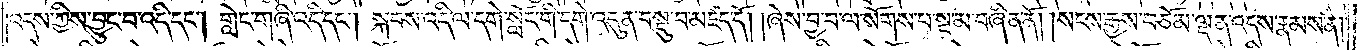འདས་ཀྱིས་བྱུང་བ་འདི་དང༌། གླེང་གཞི་འདི་དང༌། སྐབས་འདི་ལ་དགེ་སློང་གི་དགེ་འདུན་བསྡུ་བ་མཛད་དོ། །ཞེས་བྱ་བ་ལ་སོགས་པ་སྔ་མ་བཞིན་ནོ། །སངས་རྒྱས་བཅོམ་ལྡན་འདས་རྣམས་ནི།
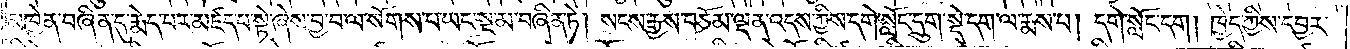མཁྱེན་བཞིན་དུ་རྨེད་པར་མཛད་པ་སྟེ་ཞེས་བྱ་བ་ལ་སོགས་པ་ཡང་སྔ་མ་བཞིན་ཏེ། སངས་རྒྱས་བཅོམ་ལྡན་འདས་ཀྱིས་དགེ་སློང་དྲུག་སྡེ་དག་ལ་རྨས་པ། དགེ་སློང་དག། ཁྱེད་ཀྱིས་དབྱར་
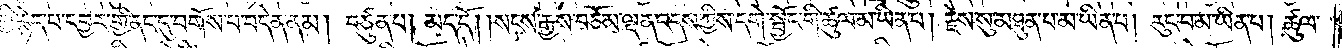གྱི་རྙེད་པ་དབྱར་གྱི་ནང་དུ་བགོས་པ་བདེན་ནམ། བཙུན་པ། མད་དོ། །སངས་རྒྱས་བཅོམ་ལྡན་འདས་ཀྱིས་དགེ་སྦྱོང་གི་ཚུལ་མ་ཡིན་པ། རྗེས་སུ་མཐུན་པ་མ་ཡིན་པ། རུང་བ་མ་ཡིན་པ། ཚུལ་
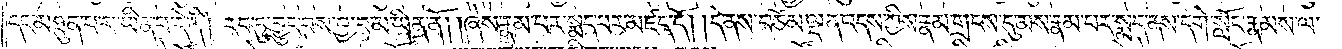དང་མཐུན་པ་མ་ཡིན་པ་དེ་ནི། རབ་ཏུ་བྱུང་བས་བྱ་བ་མ་ཡིན་ནོ། །ཞེས་རྣམ་པར་སྨད་པར་མཛད་དོ། །དེ་ནས་བཅོམ་ལྡན་འདས་ཀྱིས་རྣམ་གྲངས་དུ་མས་རྣམ་པར་སྨད་ནས་དགེ་སློང་རྣམས་ལ་
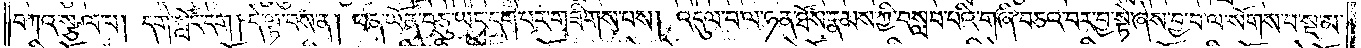བཀའ་སྩལ་པ། དགེ་སློང་དག། དེ་ལྟ་བས་ན། ཕན་ཡོན་བཅུ་ཡང་དག་པར་གཟིགས་པས། འདུལ་བ་ལ་ཉན་ཐོས་རྣམས་ཀྱི་བསླབ་པའི་གཞི་བཅའ་བར་བྱ་སྟེ་ཞེས་བྱ་བ་ལ་སོགས་པ་སྔ་མ་
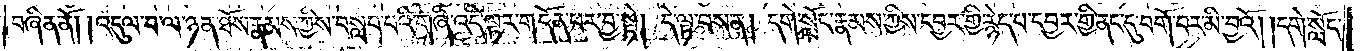བཞིན་ནོ། །འདུལ་བ་ལ་ཉན་ཐོས་རྣམས་ཀྱིས་བསླབ་པའི་གཞི་འདི་ལྟར་གདོན་པར་བྱ་སྟེ། དེ་ལྟ་བས་ན། དགེ་སློང་རྣམས་ཀྱིས་དབྱར་གྱི་རྙེད་པར་དབྱར་གྱི་ནང་དུ་བགོ་བར་མི་བྱའོ། །དགེ་སློང་
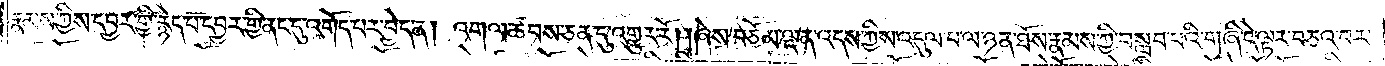རྣམས་ཀྱིས་དབྱར་གྱི་རྙེད་པར་དབྱར་གྱི་ནང་དུ་འགོད་པར་བྱེད་ན། འགལ་ཚབས་ཅན་དུ་འགྱུར་རོ། །ཞེས་བཅོམ་ལྡན་འདས་ཀྱིས་འདུལ་བ་ལ་ཉན་ཐོས་རྣམས་ཀྱི་བསླབ་པའི་གཞི་དེ་ལྟར་བཅའ་བར་
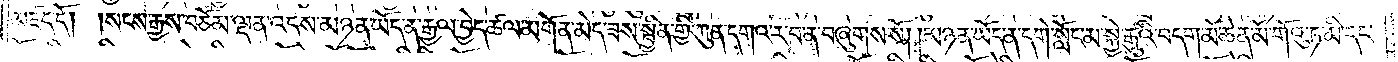མཛད་དོ། །སངས་རྒྱས་བཅོམ་ལྡན་འདས་མཉན་ཡོད་ན་རྒྱལ་བྱེད་ཚལ་མགོན་མེད་ཟས་སྦྱིན་གྱི་ཀུན་དགའ་ར་བ་ན་བཞུགས་སོ། །མཉན་ཡོད་ན་དགེ་སློང་མ་སྐྱེ་རྒུའི་བདག་མོ་ཆེན་མོ་གོའུ་ཏ་མི་དང་
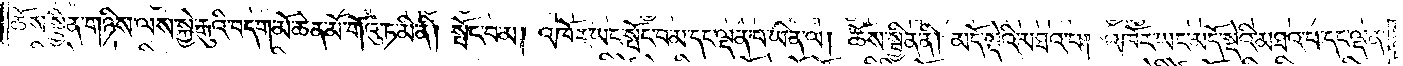ཆོས་སྦྱིན་གཉིས་ལས་སྐྱེ་རྒུའི་བདག་མོ་ཆེན་མོ་གོའུ་ཏ་མི་ནི། སྤོང་བ་མ། འཁོར་ཡང་སྤོང་བ་མ་དང་ལྡན་པ་ཡིན་ལ། ཆོས་སྦྱིན་ནི། མདོ་སྡེའི་མཐའ་པ། འཁོར་ཡང་མདོ་སྡེའི་མཐའ་པ་དང་ལྡན་
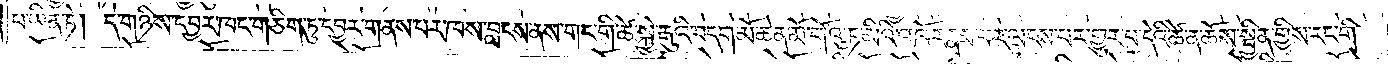པ་ཡིན་ཏེ། དེ་གཉིས་དབྱར་ཁང་གཅིག་ཏུ་དབྱར་གནས་པར་ཁས་བླངས་ནས་གང་གི་ཚེ་སྐྱེ་རྒུའི་བདག་མོ་ཆེན་མོ་གོའུ་ཏ་མིའི་འཁོར་རྣམ་པར་ལངས་པར་གྱུར་པ་དེའི་ཚེ་ན་ཆོས་སྦྱིན་གྱིས་རང་གི་
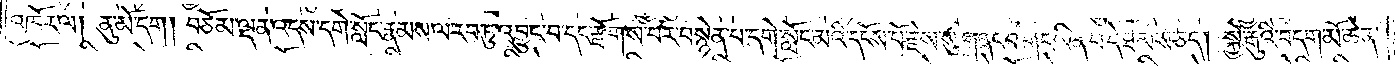འཁོར་ལ། ནུ་མོ་དག། བཅོམ་ལྡན་འདས་དགེ་སློང་རྣམས་ལ་རབ་ཏུ་འབྱུང་བ་དང་རྫོགས་པར་བསྙེན་པ་དགེ་སློང་མའི་དངོས་པོ་རྗེས་སུ་གནང་བ་གང་ཡིན་པ་དེ་ཐམས་ཅད། སྐྱེ་རྒུའི་བདག་མོ་ཆེན་
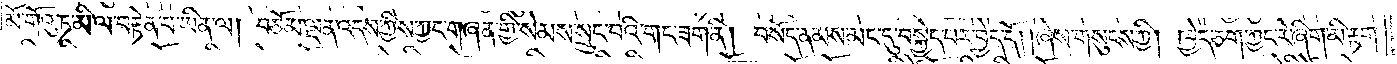མོ་གོའུ་ཏ་མི་ལ་བརྟེན་པ་ཡིན་ལ། བཅོམ་ལྡན་འདས་ཀྱིས་ཀྱང་གཞན་གྱི་སེམས་སྲུང་བའི་གང་ཟག་ནི། བསོད་ནམས་མང་དུ་བསྐྱེད་པར་བྱེད་དོ། །ཞེས་གསུངས་ཀྱི། ཁྱེད་ཅག་ཀྱང་རེ་ཞིག་མི་རྟག་
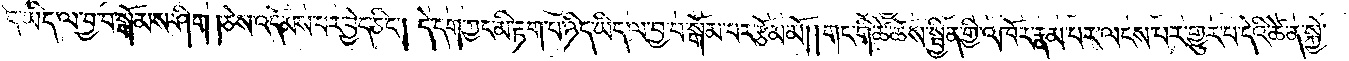པ་ཉིད་ཡིད་ལ་བྱ་བ་སྒོམས་ཤིག །ཅེས་འདོམས་པར་བྱེད་ཅིང༌། དེ་དག་ཀྱང་མི་རྟག་པ་ཉིད་ཡིད་ལ་བྱ་བ་སྒོམ་པར་རྩོམ་མོ། །གང་གི་ཚེ་ཆོས་སྦྱིན་གྱི་འཁོར་རྣམ་པར་ལངས་པར་གྱུར་པ་དེའི་ཚེ་ན་སྐྱེ་
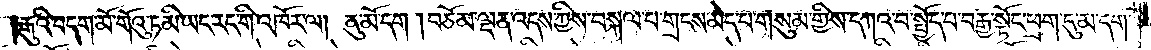རྒུའི་བདག་མོ་གོའུ་ཏ་མི་ཡང་རང་གི་འཁོར་ལ། ནུ་མོ་དག །བཅོམ་ལྡན་འདས་ཀྱིས་བསྐལ་པ་གྲངས་མེད་པ་གསུམ་གྱིས་དཀའ་བ་སྤྱོད་པ་བརྒྱ་སྟོང་ཕྲག་དུ་མ་དག་
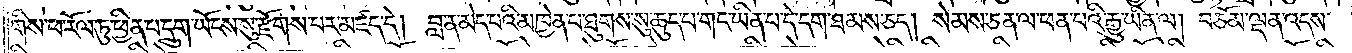གིས་ཕ་རོལ་ཏུ་ཕྱིན་པ་དྲུག་ཡོངས་སུ་རྫོགས་པར་མཛད་དེ། བླ་ན་མེད་པའི་མཁྱེན་པ་ཐུགས་སུ་ཆུད་པ་གང་ཡིན་པ་དེ་དག་ཐམས་ཅད། སེམས་ཅན་ལ་ཕན་པའི་རྒྱུ་ཡིན་ལ། བཅོམ་ལྡན་འདས་
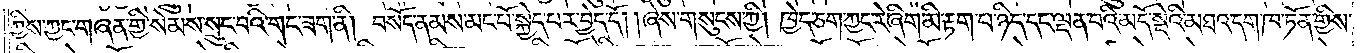ཀྱིས་ཀྱང་གཞན་གྱི་སེམས་སྲུང་བའི་གང་ཟག་ནི། བསོད་ནམས་མང་པོ་སྐྱེད་པར་བྱེད་དོ། །ཞེས་གསུངས་ཀྱི། ཁྱེད་ཅག་ཀྱང་རེ་ཞིག་མི་རྟག་པ་ཉིད་དང་ལྡན་པའི་མདོ་སྡེའི་མཐའ་དག་ཁ་ཏོན་གྱིས་
